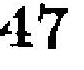47
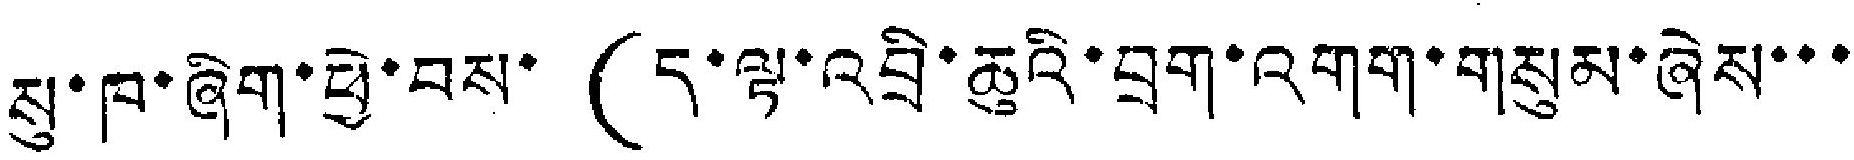སུ་ཁ་ཞིག་ཕྱེ་བས་ (ད་ལྟ་འབྲི་ཆུའི་བྲག་འགག་གསུམ་ཞེས་་་
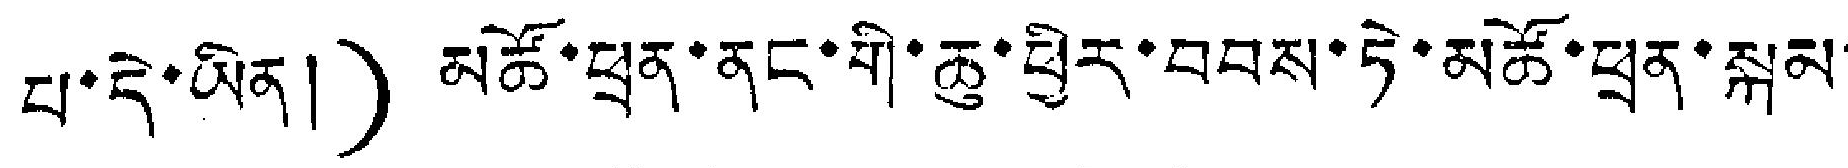པ་དེ་ཡིན།) མཚོ་ཕྲན་ནང་གི་ཆུ་ཕྱིར་བབས་ཏེ་མཚོ་ཕྲན་སྐམ་
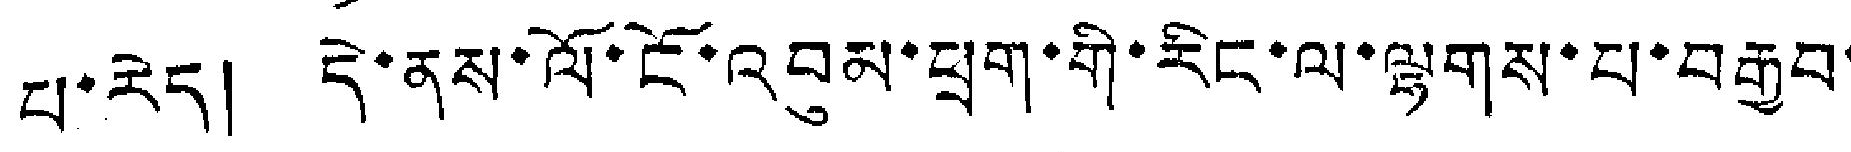པ་རེད། དེ་ནས་ལོ་ངོ་འབུམ་ཕྲག་གི་རིང་ལ་ལྷགས་པ་བརྒྱབ་
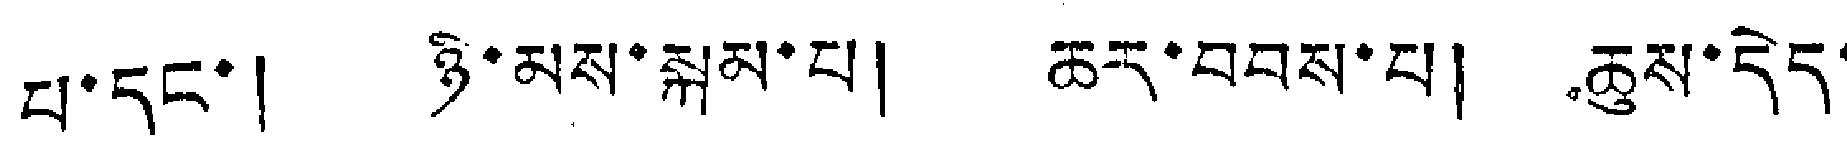པ་དང་། ཉི་མས་སྐམ་པ། ཆར་བབས་པ། ཆུས་དེད་
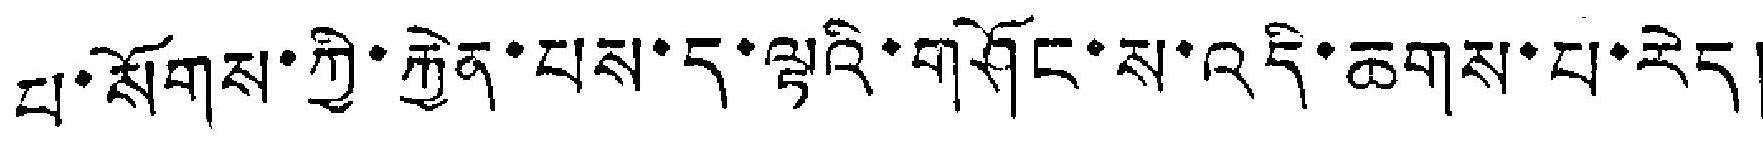པ་སོགས་ཀྱི་རྐྱེན་པས་ད་ལྟའི་གཤོང་ས་འདི་ཆགས་པ་རེད།
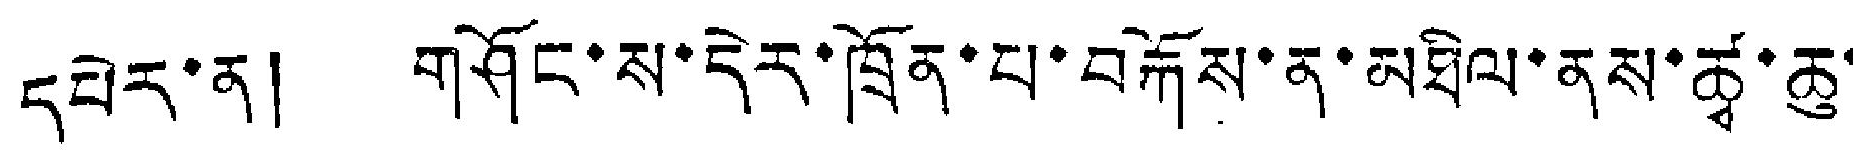དཔེར་ན། གཤོང་ས་དེར་ཁྲོན་པ་བརྐོས་ན་མཐིལ་ནས་ཚྭ་ཆུ་
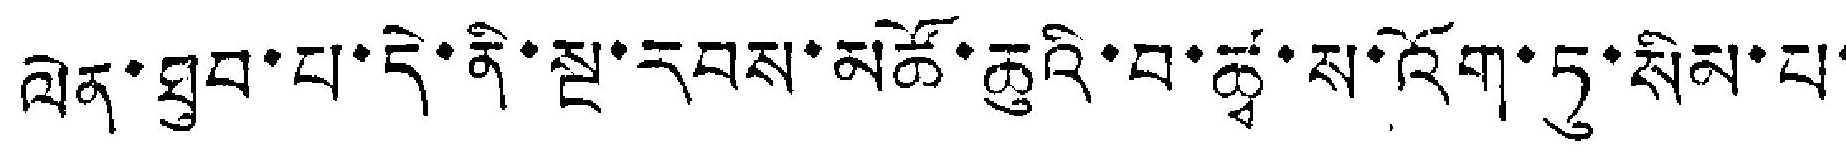ལེན་ཐུབ་པ་དེ་ནི་སྔ་རབས་མཚོ་ཆུའི་བ་ཚྭ་ས་འོག་ཏུ་སིམ་པ་
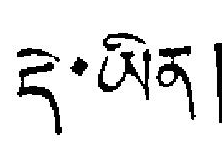དེ་ཡིན།
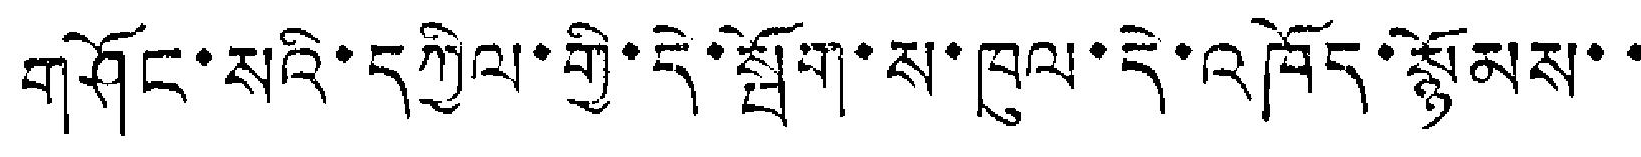གཤོང་སའི་དཀྱིལ་གྱི་དེ་སྦོག་ས་ཁུལ་དེ་འཁོད་སྙོམས་་
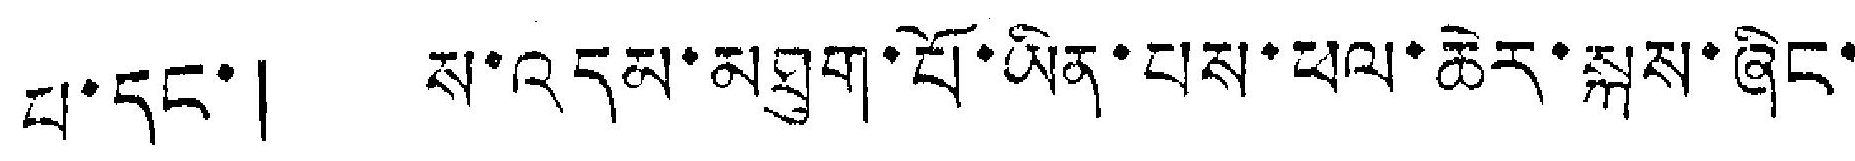པ་དང་། ས་འདམ་མཐུག་པོ་ཡིན་པས་ཕལ་ཆེར་སྐས་ཞིང་
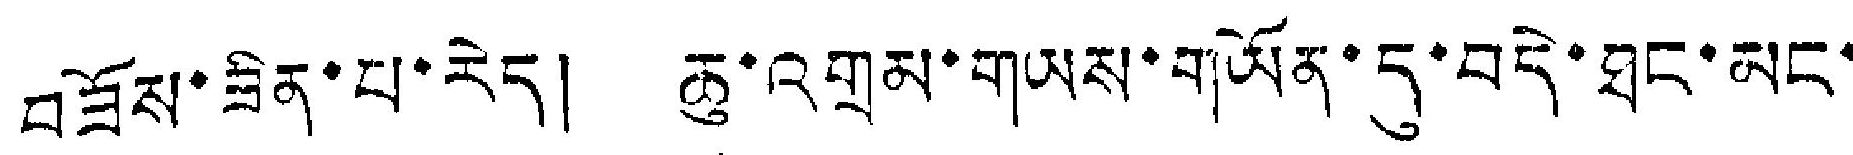བཟོས་ཟིན་པ་རེད། ཆུ་འགྲམ་གཡས་གཡོན་དུ་བདེ་ཐང་མང་
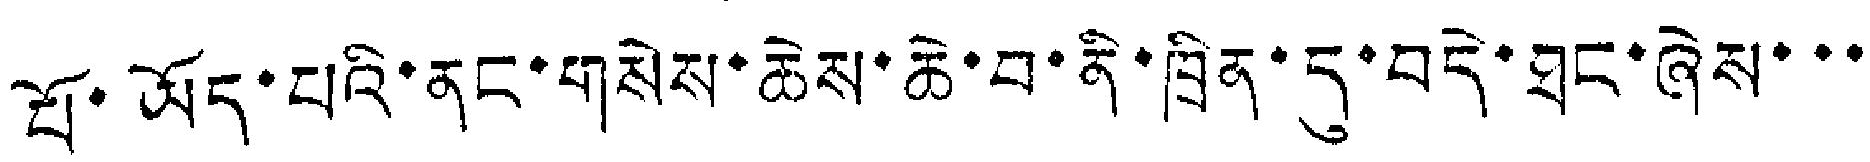པོ་ཡོད་པའི་ནང་གསེས་ཆེས་ཆེ་བ་ནི་ཁྲིན་དུ་བདེ་ཐུང་ཞེས་་་
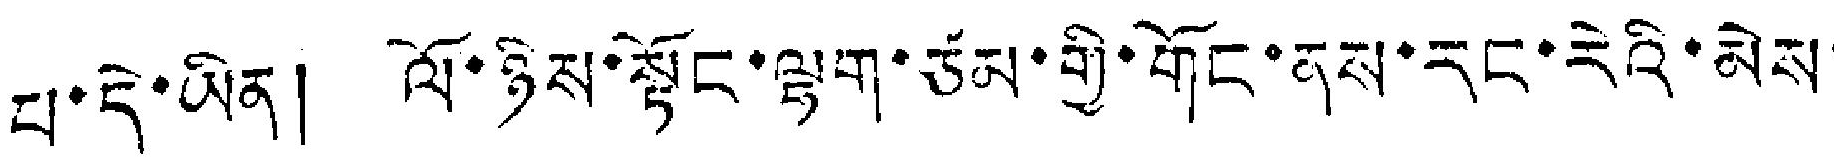པ་དེ་ཡིན། ལོ་ཉིས་སྟོང་ལྷག་ཙམ་གྱི་གོང་ནས་རང་རེའི་མེས་
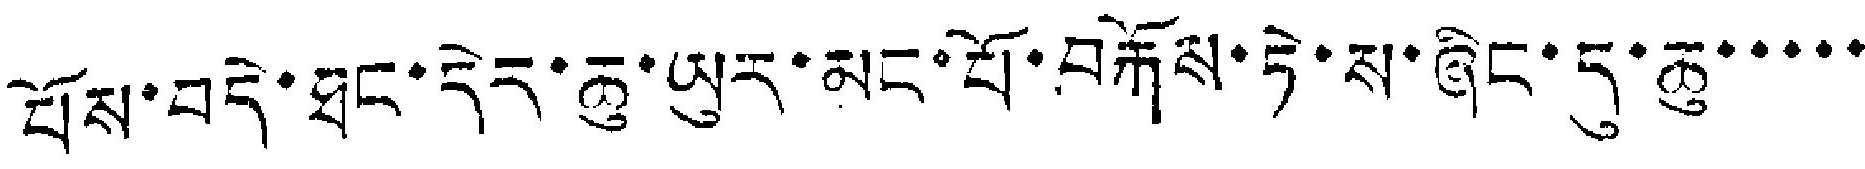པོས་བདེ་ཐང་དེད་ཆུ་ཡུར་མང་པོ་བརྐོས་ཏེ་ས་ཞིང་དུ་ཆུ་་་་་
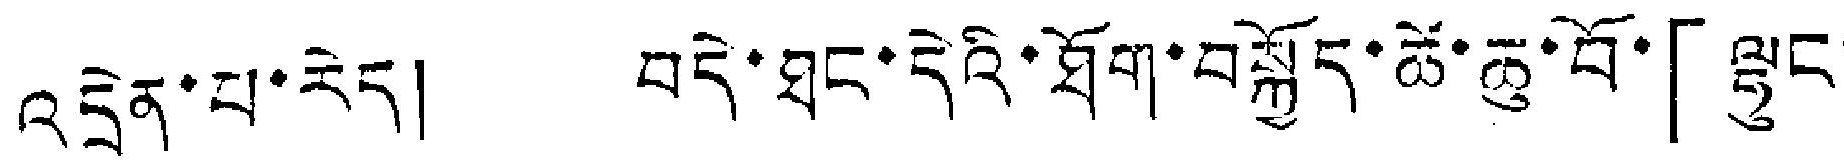འདྲེན་པ་རེད། བདེ་ཐང་དེའི་ཐོག་བསྐྱོད་ཚེ་ཆུ་བོ་「ལྷུང་
